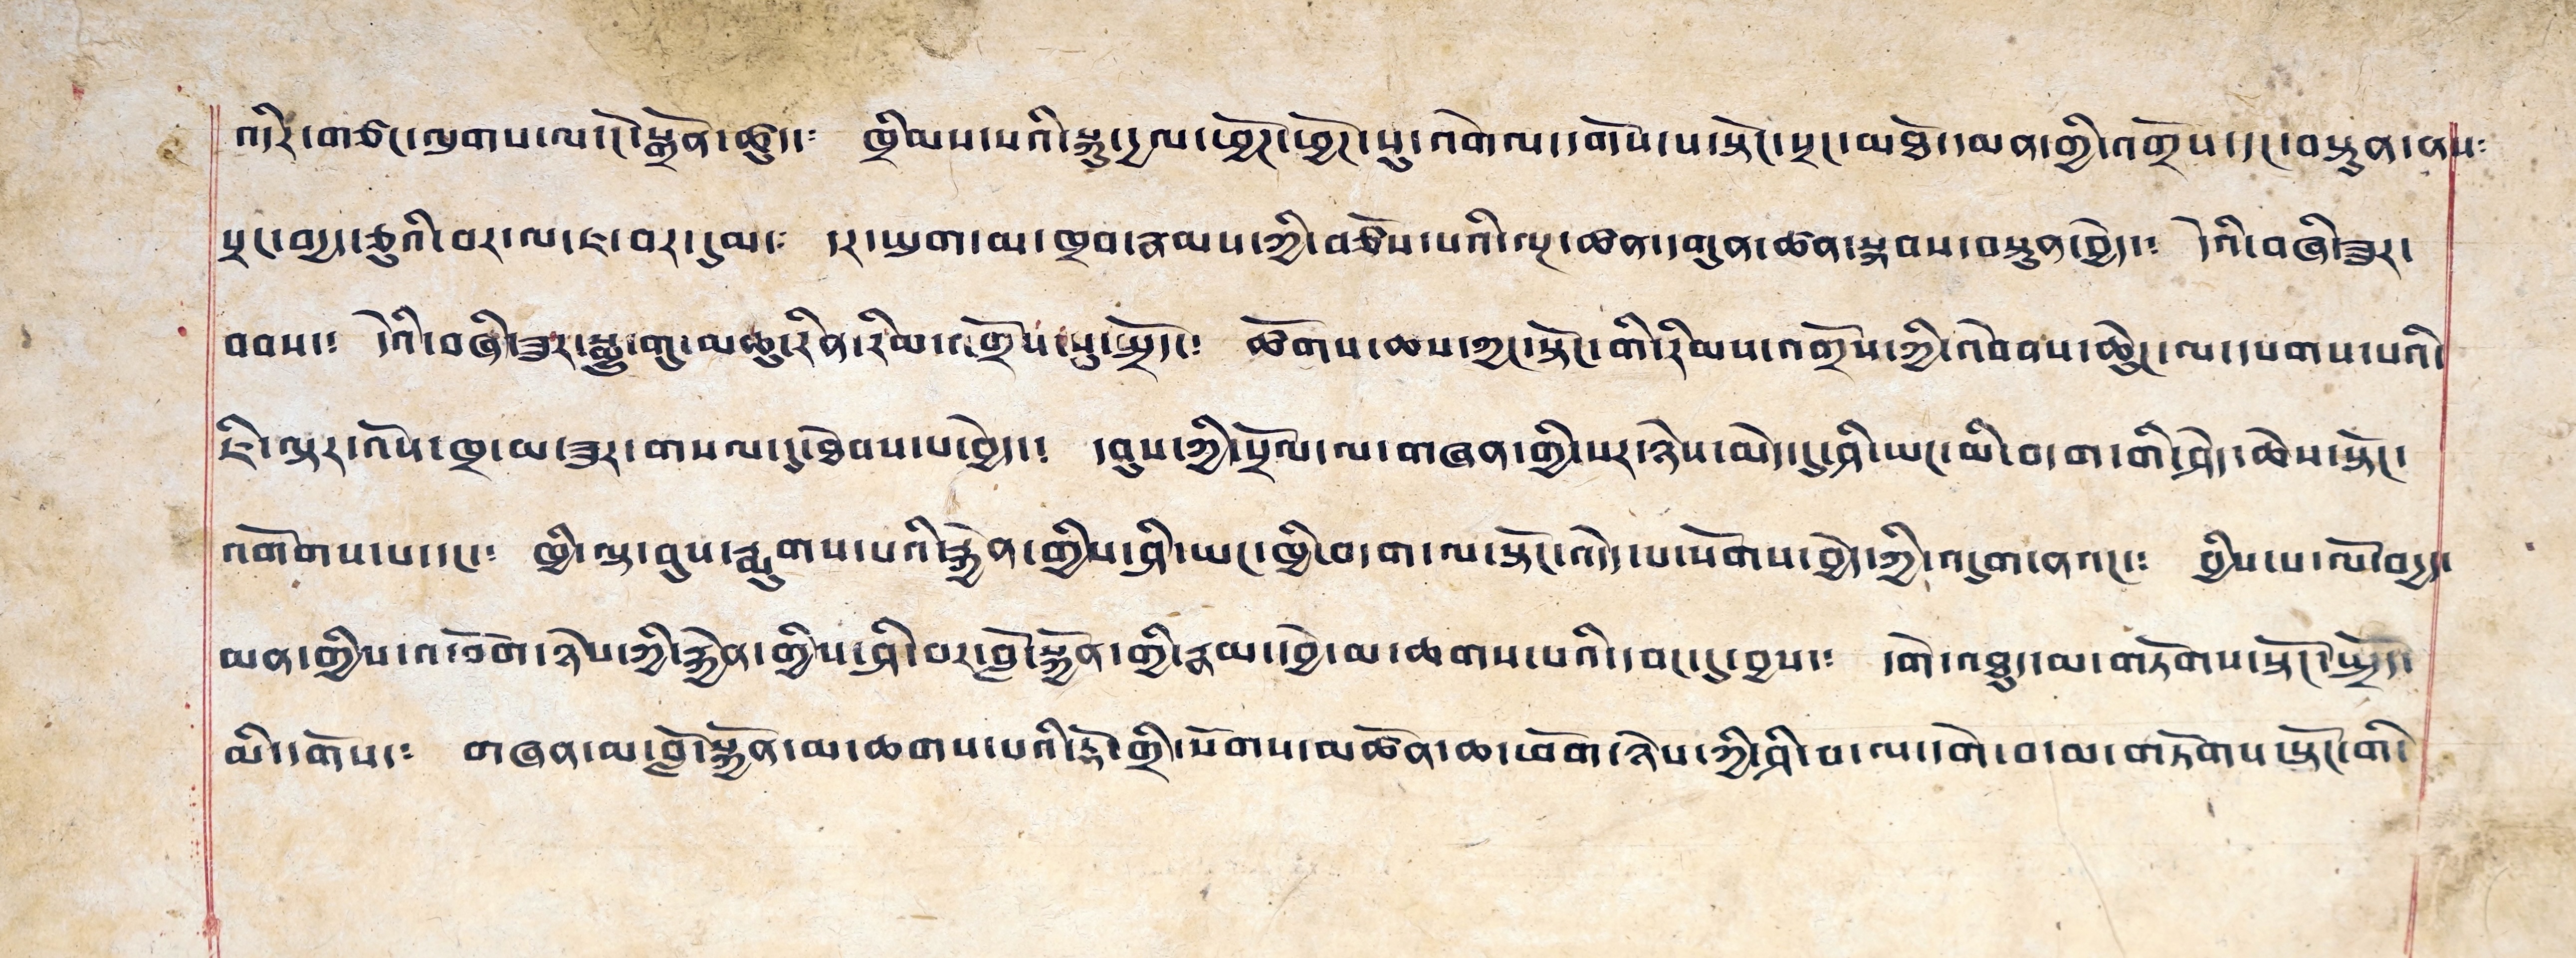འདིར་གཙང་ལུགས་ལ་ངོ་སྒྲོན་ཚུད་༴ ཁྲིམས་པའི་སྐུ་དྱལ་ཕྱོཊ་ཕྱོཊ་སུ་འགེལ་དགོས་པ་སྟོང་སྲང་མཐོ་དམན་གྱི་འགྲོས་དང་བསསྟུན་ནས༴
སྲང་བདྱད་ཅུའི་བར་ལ་ཇ་བར་དུམ་༴ དར་ཡུག་མ་ཁྲབ་རྣམས་ཀྱི་བཙོས་པའི་ལྔ་ཚན་དགུན་ཚན་སྐབས་བསྟུན་བྱེད་༴ དེའི་བཞི་ཟུར་
བབས་༴ དེའི་བཞི་ཟུར་སྨྱུ་གུ་མཆུ་རིན་རིམ་འགྲོས་སུ་སྤྲོད་༴ ཚོགས་ཆས་ཀྱང་སྟོང་གི་རིམས་འགྲོས་ཀྱི་འབེབས་ཆེུང་ལ་དཔགས་པའི་
ཇི་ལྟར་འོས་ཁྲ་མ་ཟུར་གསལ་དུ་ཐེབས་པ་བྱེད་༴ དབུས་ཀྱི་སྲོལ་ལ་གཞན་གྱི་སར་ཉེས་མེད་དུ་ཤི་ཡང་མི་བདག་གི་ཤེད་ཆེས་སྟོང་
འགོགས་པ་དང་༴ ཁྱི་ལྟ་བུས་རྨུགས་པའི་རྐྱེན་གྱིས་ཤི་ཡང་ཁྱི་བདག་ལ་སྟོང་འདོད་པ་སོགས་བྱེད་ཀྱི་འདུག་ནའང་༴ བྱིས་པ་ལོ་བདྱད་
མན་གྱིས་འཕོག་ཉེས་ཀྱི་རྐྱེན་གྱིས་ཤི་བར་བློ་སྐྱོན་གྱི་རྣམ་དབྱེ་མ་ཆགས་པའི་དབང་དུ་བྱས་༴ དགེ་འཐུད་མ་གཏོགས་སྟོང་སྤྲོད་
མི་དགོས་༴ གཞན་མ་བློ་སྐྱོན་མ་ཆགས་པའི་རྡོ་གྲི་སོགས་མཚོན་ཆ་ཕོག་ཉེས་ཀྱི་ཤི་བ་ལ་དགེ་བ་མ་གཏོགས་སྟོང་གི་
